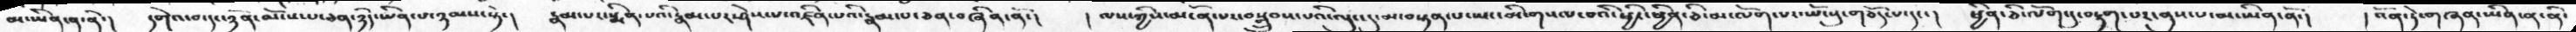མ་ཡིན་ན་ནི་།  དགེའ་བ་དང་ཉོན་མོངས་པ་ཅན་ཉིད་ཡིན་པ་ཉམས་སྟེ་།   རྣམ་པར་སྨིན་པའི་རྣམ་པར་ཤེས་པ་འཛིན་པའི་རྣམ་པ་ཅན་བཞིན་ནོ་།   ། ལས་ཀྱིས་མངོན་པར་་བསྒྲུབས་པའི་ལུང་དུ་མ་བསྟན་པ་ཡང་མི་གསལ་བའི་ཕྱིར་ཕྱིན་ཅི་མ་ལོག་པར་་ཡོངསུ་གཅོད་པ་དང་།  ཕྱིན་ཅི་ལོག་དུ་བརྟག་པར་ནུས་པ་མ་ཡིན་ནོ་།    །འོན་ཏེ་གཞན་ཡིན་ན་ནི་
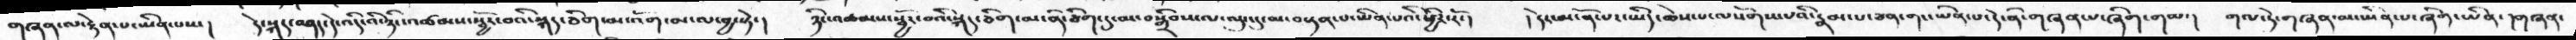གཞན་ལ་རྟེན་པ་ཡིན་པས་།  དེ་སྐད་བཤད་དེ་འདི་འི་ཉིང་འཚམས་སྦྱོར་བའི་སྐད་ཅིག་མ་འོག་མ་ལ་བྱ་སྟེ་།  ཉིང་འཚམས་སྦྱོར་བའི་སྐད་ཅིག་མ་ནི་ཅིག་དུ་མ་བསྒྲིབས་ལ་ལུང་མ་བསྟན་པ་ཡིན་པའི་ཕྱིར་རོ་།   །དེར་མངོན་པར་ཡིད་ཆེས་པ་ལསོགས་པའི་རྣམ་པ་ཅན་གང་ཡིན་པ་དེ་ནི་གཞན་པ་ཞིག་གམ་།   གལ་ཏེ་གཞན་མ་ཡིན་པ་ཞིག་པ་ཡིན་།གཞན་
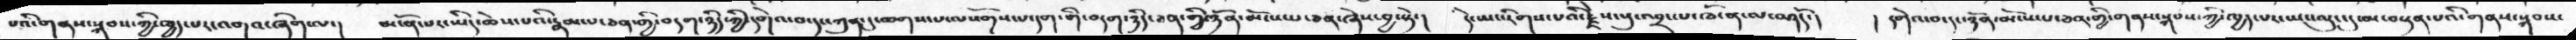པའི་གནས་སྐབས་ཀྱི་ཁྱད་པར་འགའ་ཞིག་ལ་།  མངོན་པར་ཡིད་ཆེས་པའི་རྣམ་པ་ཅན་གྱི་བདག་ཉིད་ཀྱི་དགེའ་བ་དང་ཀུན་དུ་ཆགས་པ་ལསོགས་པ་དག་གི་བདག་ཉིད་ཅན་གྱི་ཉོན་མོངས་པ་ཅན་ཞེས་བྱ་སྟེ་།  དེ་ཡང་རིགས་པའི་རྗེས་སུ་འབྲང་པ་ཁོ་ན་ལ་བཤདོ་།  ། དགེའ་བ་དང་ཉོན་མོངས་པ་ཅན་གྱི་གནས་སྐབས་ཀྱི་ཁྱད་པར་ཡང་ལུང་དུ་མ་བསྟན་པའི་གནས་སྐབས་
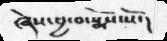ཞེས་བྱ་བ་སྨོས་སོ་།
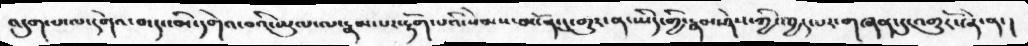འདུག་པ་ལ་དགེའ་བ་དང་མི་དགེའ་བའི་ཡུལ་ལ་རྣམ་པར་རྟོག་པའི་སེམས་མངོན་དུ་གྱུར་ན་ཡིད་གྱི་རྣམ་ཤེས་ཀྱི་ཁྱད་པར་གཞན་དུ་འགྱུརོ་ཞེ་ན་།
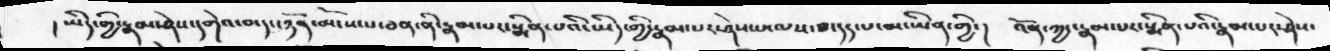། ཡིད་གྱི་རྣམ་ཤེས་དགེའ་བ་དང་ཉོན་མོངས་པ་ཅན་ནི་རྣམ་པར་སྨིན་པའི་ཡིད་གྱི་རྣམ་པར་ཤེས་པ་ལས་ཐ་དད་པ་མ་ཡིན་གྱི་།   འོན་ཀྱང་རྣམ་པར་སྨིན་པའི་རྣམ་པར་ཤེས་
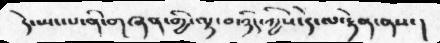དེ་སྤང་པ་ནི་གཞན་གྱི་ལྟ་བ་ཉིད་ཀྱིས་དེ་ལ་རྟེན་ནས་།
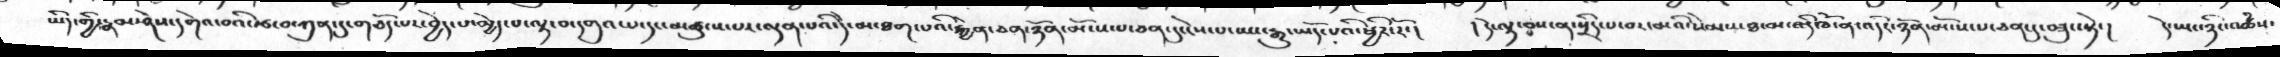ཡིད་གྱི་རྣམ་ཤེས་དགེའ་བའི་རྩ་བ་ཀུན་དུ་གཅོད་པར་བྱེད་པ་མྱེད་པ་ལྟ་བ་དགུའ་པ་དང་མཚུངས་པར་ལྡན་པའི་དེ་མ་ཐག་པའི་རྐྱེན་ཅན་ཉོན་མོངས་པ་ཅན་དུ་ངེས་པ་ཡང་རྒྱུ་ཡོད་པའི་ཕྱིར་རོ་།   །དེ་ལྟ་བས་ན་སྲིད་པ་བར་མའི་སེམས་ཐ་མ་འདི་ཁོ་ན་འདིར་ཉོན་མོངས་པ་ཅན་དུ་བཟུང་སྟེ་།  དེ་ཡང་ཉིང་འཚཾས་
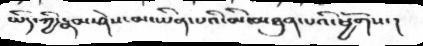ཡིད་ཀྱི་རྣམ་ཤེས་མ་ཡིན་པའི་མི་མཐུན་པའི་ཕྱོགས་།
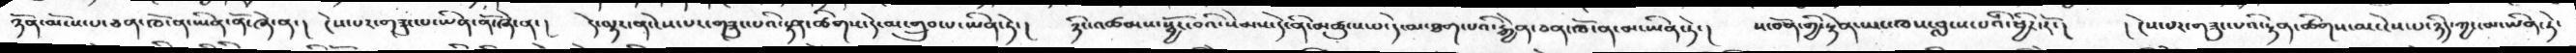ཉོན་མོངས་པ་ཅན་ཁོ་ན་ཡིན་ནོ་ཞེ་ན་།   ངེས་པར་གཟུང་པ་ཡིན་ནོ་ཞེ་ན་།   དེ་ལྟར་ན་ངེས་པར་གཟུང་པའི་སྟན་ཚིགས་དེ་མ་གྲུབ་པ་ཡིན་ཏེ་།   ཉིང་འཚམས་སྦྱོར་བའི་སེམས་དེ་ནི་མཚུངས་པ་དེ་མ་ཐག་པའི་རྐྱེན་ཅན་ཁོ་ན་མ་ཡིན་ཏེ་།   ས་བོན་གྱི་རྟེན་ཡང་ཁས་བླངས་པའི་ཕྱིར་རོ་།   ། ངེས་པར་གཟུང་པའི་རྟན་ཚིགས་མ་ངེས་པ་ཉིད་ཀྱང་མ་ཡིན་ཏེ་
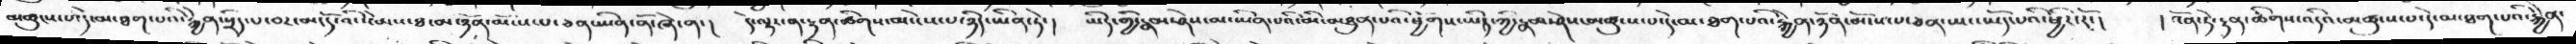མཚུངས་པ་དེ་མ་ཐག་པའི་རྐྱེན་སྲིད་པ་བར་མ་དོ་འདི་སེམས་ཐ་མ་ཉོན་མོངས་པ་ཅན་ཡིན་ནོ་ཞེ་ན་།   དེ་ལྟར་ན་རྟན་ཚིགས་མ་ངེས་པ་ཉིད་ཡིན་ཏེ་།   ཡིད་གྱི་རྣམ་ཤེས་མ་ཡིན་པའི་མི་མཐུན་པའི་ཕྱོགས་ཡིད་ཀྱི་རྣམ་ཤེས་མཚུངས་པ་དེ་མ་ཐག་པའི་རྐྱེན་ཉོན་མོངས་པ་ཅན་ཡང་ཡོད་པའི་ཕྱིར་རོ་།    ། འོན་ཏེ་རྟན་ཚིགས་འདིའ་མཚུངས་པ་དེ་མ་ཐག་པའི་རྐྱེན་
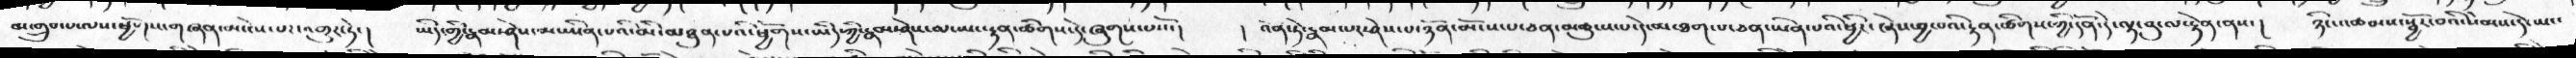མ་གྲུབ་པ་ལས་ཕྱོགས་གཞན་མ་ངེས་པར་འགྱུར་ཏེ་།   ཡིད་གྱི་རྣམ་ཤེས་མ་ཡིན་པའི་མི་མཐུན་པའི་ཕྱོགས་ཡིད་ཀྱི་རྣམ་ཤེས་ལ་ཡང་རྟན་ཚིགས་དེ་ཞུགས་པསོ་།    ། འོན་ཏེ་རྣམ་པར་ཤེས་པ་ཉོན་མོངས་པ་ཅན་མཚུངས་པ་དེ་མ་ཐག་པ་ཅན་ཡིན་པའི་ཕྱིར་ཞེས་བྱ་བའི་རྟན་ཚིགས་ཀྱི་དོན་དེ་ལྟ་བུ་ལ་རྟེན་ནས་།   ཉིང་འཚམས་སྦྱོར་བའི་སེམས་དེ་ཡང་
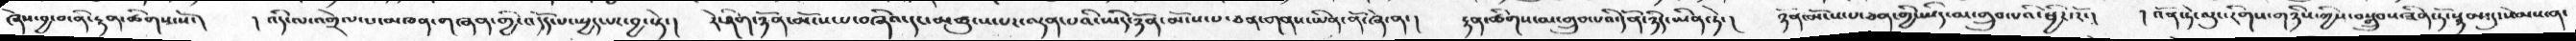ཞེས་བྱ་བ་ནི་རྟན་ཚིགས་སོ་།   ། འདི་ལ་འགྲེལ་པ་མཁན་གཞན་གྱི་འདོད་པ་སྤྱད་པར་བྱ་སྟེ་།   རེ་ཤིག་ཉོན་མོངས་པ་བཞིའ་དང་མཚུངས་པར་ལྡན་པའི་ཡིད་ཉོན་མོངས་པ་ཅན་གནས་ཡིན་ནོ་ཞེ་ན་།   རྟན་ཚིགས་མ་གྲུབ་པའི་དོན་ཉིད་ཡིན་ཏེ་།  ཉོན་མོངས་པ་ཅན་གྱི་ཡིད་མ་གྲུབ་པའི་ཕྱིར་རོ་།   ། འོན་ཏེ་ལུང་རིགས་གཉིས་ཀྱིས་བསྒྲུབས་ཟིན་ཏོ་སྙམ་དུ་སེམས་ན་
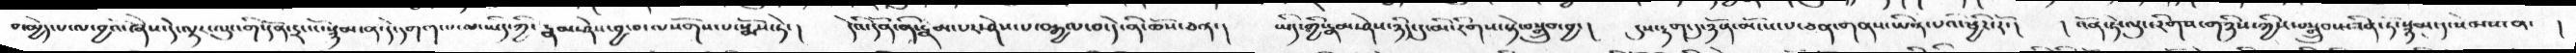བ་མྱེད་པ་ལ་བྱའོ་ཞེས་དེ་ལྟར་ལུང་གི་དོན་དྲང་ངོ་སྙམ་ན་དེ་དགག་པ་ལ་ཡིད་ཀྱི་རྣམ་ཤེས་བྱ་བ་ལསོགས་པ་སྨོས་ཏེ་།   དེའི་དོན་ནི་རྣམ་པར་ཤེས་པ་བརྒྱལ་བ་དེ་ནི་ཆོས་ཅན་།    ཡིད་ཀྱི་རྣམ་ཤེས་ཉིད་དུ་མི་རིགས་སྟེ་བསྒྲུབ་བྱ་།    དུས་རྟག་དུ་ཉོན་མོངས་པ་ཅན་གནས་ཡིན་པའི་ཕྱིར་རོ་།    ། འོན་ཏེ་ལུང་རིགས་གཉིས་ཀྱིས་བསྒྲུབས་ཟིན་ཏོ་སྙམ་དུ་སེམས་ན་  །
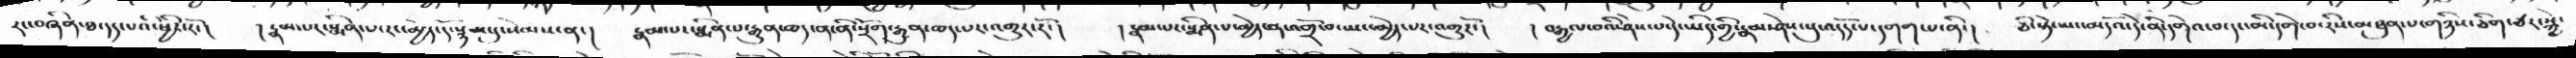རང་བཞིན་ཐ་དད་པའི་ཕྱིར་རོ་།   །རྣམ་པར་སྨིན་པ་རང་མྱེད་དོ་སྙམ་དུ་སེམས་ན་།   རྣམ་པར་སྨིན་པ་རྒྱུན་ཆད་ན་ནི་སྲོག་རྒྱུན་ཆད་པར་འགྱུརོ་།  ། རྣམ་པར་སྨིན་པ་མྱེད་ན་འགྲོ་བ་ཡང་མྱེད་པར་འགྱུརོ་།  །བརྒྱལ་བའི་ཤེས་པ་དེ་ཡིད་གྱི་རྣམ་ཤེས་སུ་འདོད་པ་དགག་པ་ནི་།  ཅི་སྟེ་ཡང་མདོའ་དེ་ནི་དགེའ་བ་དང་མི་དགེ་བ་རིས་མཐུན་པ་གཉིས་ཅིག་ཅར་སྐྱེ་
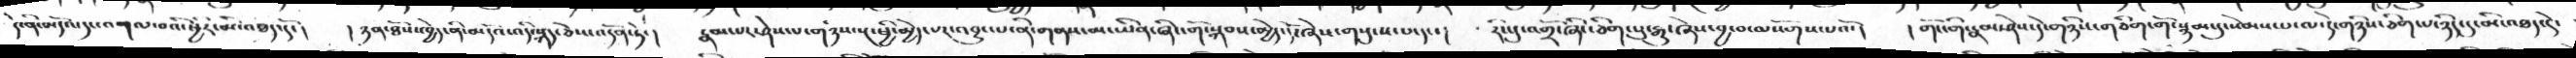དེ་ནི་མདོའ་དང་འགལ་བའི་ཕྱིར་མི་འཐད་དོ་།  །ཉན་ཐོས་ཁྱེད་ནི་མདོའ་འདི་སྐད་ཅེས་འདོན་ཏེ་།  རྣམ་པར་ཤེས་པ་གཉིས་སྔ་ཕྱི་མྱེད་པར་འབྱུང་པ་ནི་གནས་མ་ཡིན་ཞིང་གོ་སྐབས་མྱེད་དོ་ཞེས་གསུངས་པ་དང་།  རིང་དུ་འགྲོ་ཞིང་ཅིག་པུ་རྒྱུ་ཞེས་བྱ་བ་ལསོགས་པའོ་།  །གོང་གི་རྣམ་ཤེས་དེ་གཉིས་གཅིག་གོ་སྙམསུ་སེམས་པ་ལ་དེ་གཉིས་ཅིག་པ་ཉིད་དུ་མི་འཐད་དེ་
